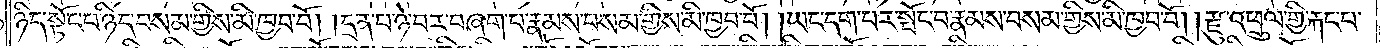ཉིད་སྟོང་པ་ཉིད་བསམ་གྱིས་མི་ཁྱབ་བོ། །དྲན་པ་ཉེ་བར་བཞག་པ་རྣམས་བསམ་གྱིས་མི་ཁྱབ་བོ། །ཡང་དག་པར་སྤོང་བ་རྣམས་བསམ་གྱིས་མི་ཁྱབ་བོ། །རྫུ་འཕྲུལ་གྱི་རྐང་པ་
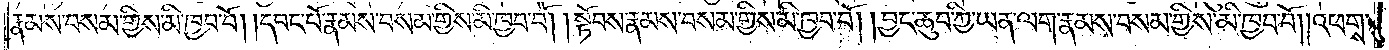རྣམས་བསམ་གྱིས་མི་ཁྱབ་བོ། །དབང་པོ་རྣམས་བསམ་གྱིས་མི་ཁྱབ་བོ། །སྟོབས་རྣམས་བསམ་གྱིས་མི་ཁྱབ་བོ། །བྱང་ཆུབ་ཀྱི་ཡན་ལག་རྣམས་བསམ་གྱིས་མི་ཁྱབ་བོ། །འཕགས་
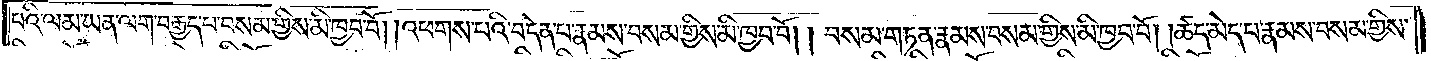པའི་ལམ་ཡན་ལག་བརྒྱད་པ་བསམ་གྱིས་མི་ཁྱབ་བོ། །འཕགས་པའི་བདེན་པ་རྣམས་བསམ་གྱིས་མི་ཁྱབ་བོ། །བསམ་གཏན་རྣམས་བསམ་གྱིས་མི་ཁྱབ་བོ། །ཚད་མེད་པ་རྣམས་བསམ་གྱིས་
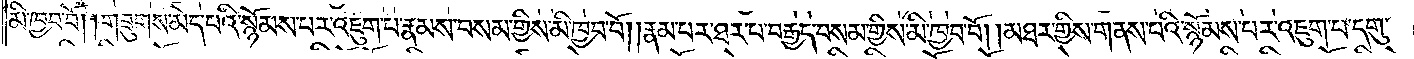མི་ཁྱབ་བོ། །གཟུགས་མེད་པའི་སྙོམས་པར་འཇུག་པ་རྣམས་བསམ་གྱིས་མི་ཁྱབ་བོ། །རྣམ་པར་ཐར་པ་བརྒྱད་བསམ་གྱིས་མི་ཁྱབ་བོ། །མཐར་གྱིས་གནས་པའི་སྙོམས་པར་འཇུག་པ་དགུ་
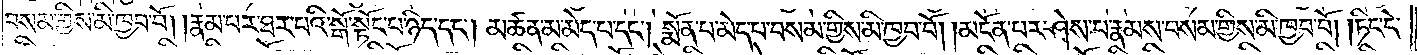བསམ་གྱིས་མི་ཁྱབ་བོ། །རྣམ་པར་ཐར་པའི་སྒོ་སྟོང་པ་ཉིད་དང༌། མཚན་མ་མེད་པ་དང༌། སྨོན་པ་མེད་པ་བསམ་གྱིས་མི་ཁྱབ་བོ། །མངོན་པར་ཤེས་པ་རྣམས་བསམ་གྱིས་མི་ཁྱབ་བོ། །ཏིང་ངེ་
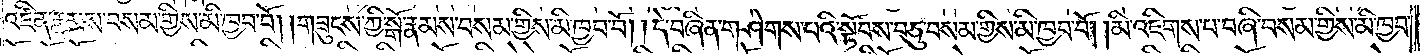འཛིན་རྣམས་བསམ་གྱིས་མི་ཁྱབ་བོ། །གཟུངས་ཀྱི་སྒོ་རྣམས་བསམ་གྱིས་མི་ཁྱབ་བོ། །དེ་བཞིན་གཤེགས་པའི་སྟོབས་བཅུ་བསམ་གྱིས་མི་ཁྱབ་བོ། །མི་འཇིགས་པ་བཞི་བསམ་གྱིས་མི་ཁྱབ་
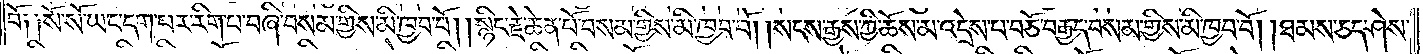བོ༑ ༑སོ་སོ་ཡང་དག་པར་རིག་པ་བཞི་བསམ་གྱིས་མི་ཁྱབ་བོ། །སྙིང་རྗེ་ཆེན་པོ་བསམ་གྱིས་མི་ཁྱབ་བོ། །སངས་རྒྱས་ཀྱི་ཆོས་མ་འདྲེས་པ་བཅོ་བརྒྱད་བསམ་གྱིས་མི་ཁྱབ་བོ། །ཐམས་ཅད་ཤེས་
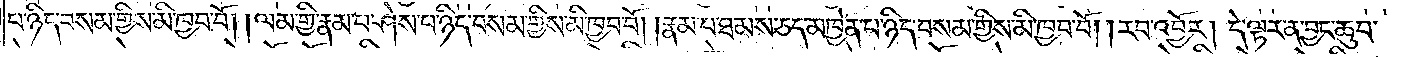པ་ཉིད་བསམ་གྱིས་མི་ཁྱབ་བོ། །ལམ་གྱི་རྣམ་པ་ཤེས་པ་ཉིད་བསམ་གྱིས་མི་ཁྱབ་བོ། །རྣམ་པ་ཐམས་ཅད་མཁྱེན་པ་ཉིད་བསམ་གྱིས་མི་ཁྱབ་བོ། །རབ་འབྱོར། དེ་ལྟར་ན་བྱང་ཆུབ་
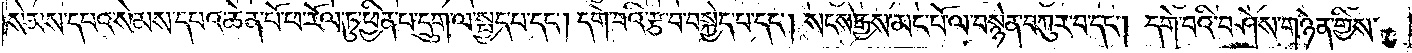སེམས་དཔའ་སེམས་དཔའ་ཆེན་པོ་ཕ་རོལ་ཏུ་ཕྱིན་པ་དྲུག་ལ་སྦྱང་པ་དང༌། དགེ་བའི་རྩ་བ་བསྐྱེད་པ་དང༌། སངས་རྒྱས་མང་པོ་ལ་བསྙེན་བཀུར་བ་དང༌། དགེ་བའི་བཤེས་གཉེན་གྱིས་
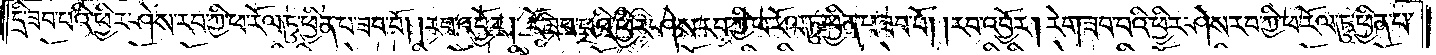དྲི་ཟབ་པའི་ཕྱིར་ཤེས་རབ་ཀྱི་ཕ་རོལ་ཏུ་ཕྱིན་པ་ཟབ་བོ། །རབ་འབྱོར། རོ་ཟབ་བའི་ཕྱིར་ཤེས་རབ་ཀྱི་ཕ་རོལ་ཏུ་ཕྱིན་པ་ཟབ་བོ། །རབ་འབྱོར། རེག་ཟབ་པའི་ཕྱིར་ཤེས་རབ་ཀྱི་ཕ་རོལ་ཏུ་ཕྱིན་པ་
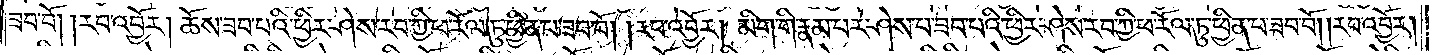ཟབ་བོ། །རབ་འབྱོར། ཆོས་ཟབ་པའི་ཕྱིར་ཤེས་རབ་ཀྱི་ཕ་རོལ་ཏུ་ཕྱིན་པ་ཟབ་བོ། །རབ་འབྱོར། མིག་གི་རྣམ་པར་ཤེས་པ་ཟབ་པའི་ཕྱིར་ཤེས་རབ་ཀྱི་ཕ་རོལ་ཏུ་ཕྱིན་པ་ཟབ་བོ། །རབ་འབྱོར།
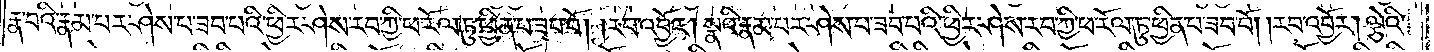རྣ་བའི་རྣམ་པར་ཤེས་པ་ཟབ་པའི་ཕྱིར་ཤེས་རབ་ཀྱི་ཕ་རོལ་ཏུ་ཕྱིན་པ་ཟབ་བོ། །རབ་འབྱོར། སྣའི་རྣམ་པར་ཤེས་པ་ཟབ་པའི་ཕྱིར་ཤེས་རབ་ཀྱི་ཕ་རོལ་ཏུ་ཕྱིན་པ་ཟབ་བོ། །རབ་འབྱོར། ལྕེའི་
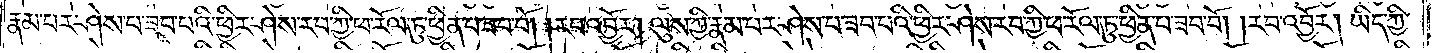རྣམ་པར་ཤེས་པ་ཟབ་པའི་ཕྱིར་ཤེས་རབ་ཀྱི་ཕ་རོལ་ཏུ་ཕྱིན་པ་ཟབ་བོ། །རབ་འབྱོར། ལུས་ཀྱི་རྣམ་པར་ཤེས་པ་ཟབ་པའི་ཕྱིར་ཤེས་རབ་ཀྱི་ཕ་རོལ་ཏུ་ཕྱིན་པ་ཟབ་བོ། །རབ་འབྱོར། ཡིད་ཀྱི་
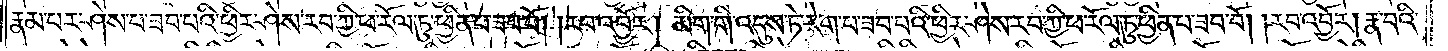རྣམ་པར་ཤེས་པ་ཟབ་པའི་ཕྱིར་ཤེས་རབ་ཀྱི་ཕ་རོལ་ཏུ་ཕྱིན་པ་ཟབ་བོ། །རབ་འབྱོར། མིག་གི་འདུས་ཏེ་རེག་པ་ཟབ་པའི་ཕྱིར་ཤེས་རབ་ཀྱི་ཕ་རོལ་ཏུ་ཕྱིན་པ་ཟབ་བོ། །རབ་འབྱོར། རྣ་བའི་
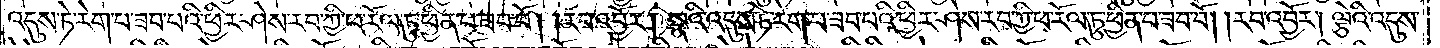འདུས་ཏེ་རེག་པ་ཟབ་པའི་ཕྱིར་ཤེས་རབ་ཀྱི་ཕ་རོལ་ཏུ་ཕྱིན་པ་ཟབ་བོ། །རབ་འབྱོར། སྣའི་འདུས་ཏེ་རེག་པ་ཟབ་པའི་ཕྱིར་ཤེས་རབ་ཀྱི་ཕ་རོལ་ཏུ་ཕྱིན་པ་ཟབ་བོ། །རབ་འབྱོར། ལྕེའི་འདུས་
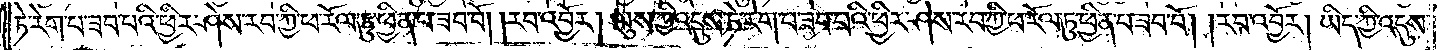ཏེ་རེག་པ་ཟབ་པའི་ཕྱིར་ཤེས་རབ་ཀྱི་ཕ་རོལ་ཏུ་ཕྱིན་པ་ཟབ་བོ། །རབ་འབྱོར། ལུས་ཀྱི་འདུས་ཏེ་རེག་པ་ཟབ་པའི་ཕྱིར་ཤེས་རབ་ཀྱི་ཕ་རོལ་ཏུ་ཕྱིན་པ་ཟབ་བོ། །རབ་འབྱོར། ཡིད་ཀྱི་འདུས་
